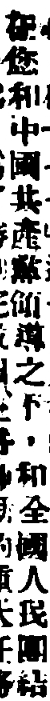在您和中國共產黨領導之下，和全國人民團結
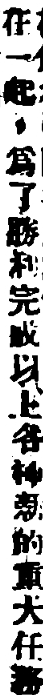在一起，爲了勝利完成以上各種新的重大任務
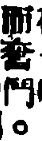而奮鬥。
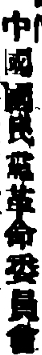中國國民黨革命委員會
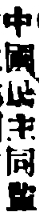中國民主同盟
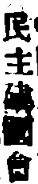民主建國會
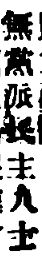無黨派民主人士
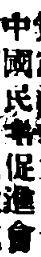中國民主促進會
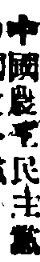中國農工民主黨
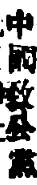中國致公黨
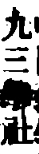九三學社
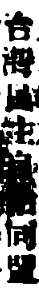台灣民主自治同盟
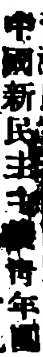中國新民主主義靑年團
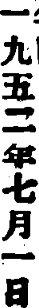一九五二年七月一日
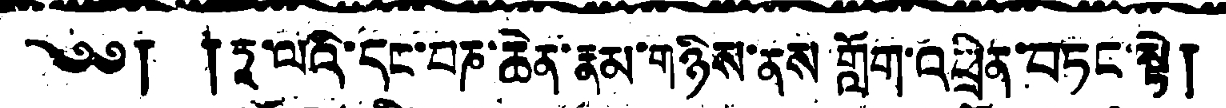༄༅། །ཏཱ་ལའི་དང་པཎ་ཆེན་རྣམ་གཉིས་ནས གློག་འཕྲིན་བཏང་སྟེ།
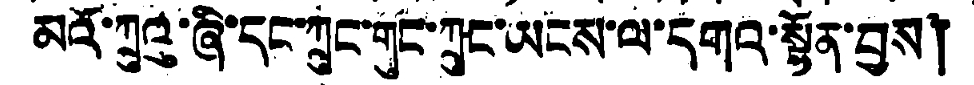མའོ་ཀྲུའུ་ཞི་དང་ཀྲུང་གུང་ཀྲུང་ཡངས་ལ་དགའ་སྟོན་བྱས།
